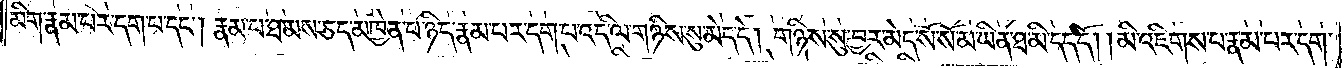མིག་རྣམ་པར་དག་པ་དང༌། རྣམ་པ་ཐམས་ཅད་མཁྱེན་པ་ཉིད་རྣམ་པར་དག་པ་འདི་ལ་གཉིས་སུ་མེད་དེ། གཉིས་སུ་བྱར་མེད་སོ་སོ་མ་ཡིན་ཐ་མི་དད་དོ། །མི་འཇིགས་པ་རྣམ་པར་དག་
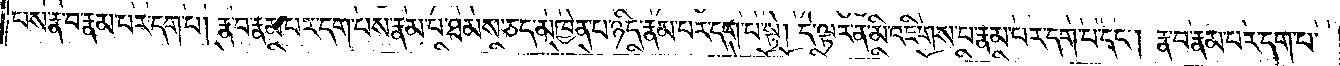པས་རྣ་བ་རྣམ་པར་དག་པ། རྣ་བ་རྣམ་པར་དག་པས་རྣམ་པ་ཐམས་ཅད་མཁྱེན་པ་ཉིད་རྣམ་པར་དག་པ་སྟེ། དེ་ལྟར་ན་མི་འཇིགས་པ་རྣམ་པར་དག་པ་དང༌། རྣ་བ་རྣམ་པར་དག་པ་
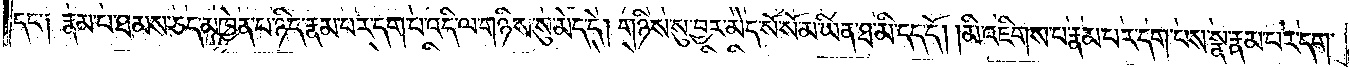དང་༑ རྣམ་པ་ཐམས་ཅད་མཁྱེན་པ་ཉིད་རྣམ་པར་དག་པ་འདི་ལ་གཉིས་སུ་མེད་དེ། གཉིས་སུ་བྱར་མེད་སོ་སོ་མ་ཡིན་ཐ་མི་དད་དོ། །མི་འཇིགས་པ་རྣམ་པར་དག་པས་སྣ་རྣམ་པར་དག་
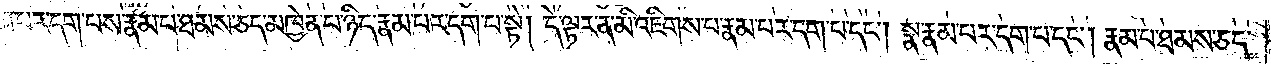པ༑ སྣ་རྣམ་པར་དག་པས་རྣམ་པ་ཐམས་ཅད་མཁྱེན་པ་ཉིད་རྣམ་པར་དག་པ་སྟེ། དེ་ལྟར་ན་མི་འཇིགས་པ་རྣམ་པར་དག་པ་དང༌། སྣ་རྣམ་པར་དག་པ་དང༌། རྣམ་པ་ཐམས་ཅད་
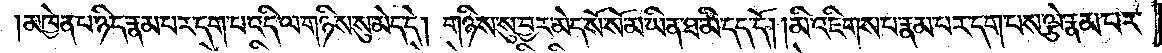མཁྱེན་པ་ཉིད་རྣམ་པར་དག་པ་འདི་ལ་གཉིས་སུ་མེད་དེ། གཉིས་སུ་བྱར་མེད་སོ་སོ་མ་ཡིན་ཐ་མི་དད་དོ། །མི་འཇིགས་པ་རྣམ་པར་དག་པས་ལྕེ་རྣམ་པར་
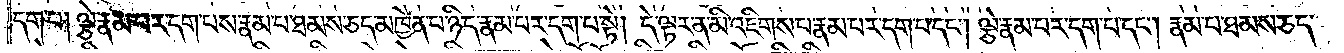དག་པ། ལྕེ་རྣམ་པར་དག་པས་རྣམ་པ་ཐམས་ཅད་མཁྱེན་པ་ཉིད་རྣམ་པར་དག་པ་སྟེ། དེ་ལྟར་ན་མི་འཇིགས་པ་རྣམ་པར་དག་པ་དང༌། ལྕེ་རྣམ་པར་དག་པ་དང༌། རྣམ་པ་ཐམས་ཅད་
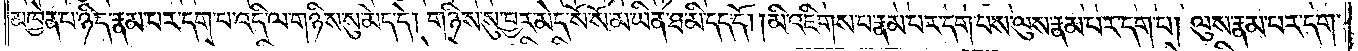མཁྱེན་པ་ཉིད་རྣམ་པར་དག་པ་འདི་ལ་གཉིས་སུ་མེད་དེ། གཉིས་སུ་བྱར་མེད་སོ་སོ་མ་ཡིན་ཐ་མི་དད་དོ། །མ་འཇིགས་པ་རྣམ་པར་དག་པས་ལུས་རྣམ་པར་དག་པ། ལུས་རྣམ་པར་དག་
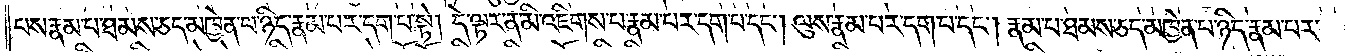པས་རྣམ་པ་ཐམས་ཅད་མཁྱེན་པ་ཉིད་རྣམ་པར་དག་པ་སྟེ། དེ་ལྟར་ན་མི་འཇིགས་པ་རྣམ་པར་དག་པ་དང༌། ལུས་རྣམ་པར་དག་པ་དང༌། རྣམ་པ་ཐམས་ཅད་མཁྱེན་པ་ཉིད་རྣམ་པར་
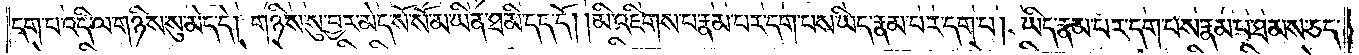དག་པ་འདི་ལ་གཉིས་སུ་མེད་དེ། གཉིས་སུ་བྱར་མེད་སོ་སོ་མ་ཡིན་ཐ་མི་དད་དོ། །མི་འཇིགས་པ་རྣམ་པར་དག་པས་ཡིད་རྣམ་པར་དག་པ། ཡིད་རྣམ་པར་དག་པས་རྣམ་པ་ཐམས་ཅད་
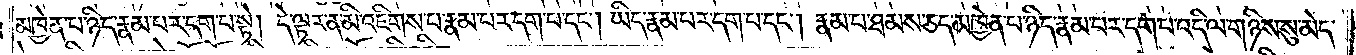མཁྱེན་པ་ཉིད་རྣམ་པར་དག་པ་སྟེ། དེ་ལྟར་ན་མི་འཇིགས་པ་རྣམ་པར་དག་པ་དང༌། ཡིད་རྣམ་པར་དག་པ་དང༌། རྣམ་པ་ཐམས་ཅད་མཁྱེན་པ་ཉིད་རྣམ་པར་དག་པ་འདི་ལ་གཉིས་སུ་མེད་
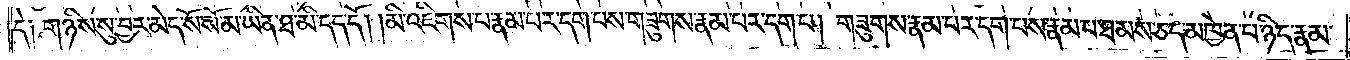དེ༑ གཉིས་སུ་བྱར་མེད་སོ་སོ་མ་ཡིན་ཐ་མི་དད་དོ། །མི་འཇིགས་པ་རྣམ་པར་དག་པས་གཟུགས་རྣམ་པར་དག་པ། གཟུགས་རྣམ་པར་དག་པས་རྣམ་པ་ཐམས་ཅད་མཁྱེན་པ་ཉིད་རྣམ་
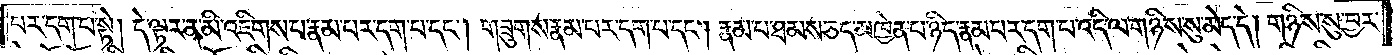པར་དག་པ་སྟེ། དེ་ལྟར་ན་མི་འཇིགས་པ་རྣམ་པར་དག་པ་དང༌། གཟུགས་རྣམ་པར་དག་པ་དང༌། རྣམ་པ་ཐམས་ཅད་མཁྱེན་པ་ཉིད་རྣམ་པར་དག་པ་འདི་ལ་གཉིས་སུ་མེད་དེ། གཉིས་སུ་བྱར་
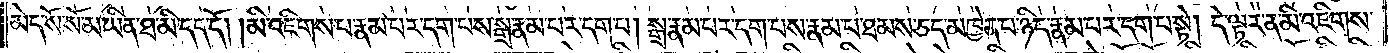མེད་སོ་སོ་མ་ཡིན་ཐ་མི་དད་དོ། །མི་འཇིགས་པ་རྣམ་པར་དག་པས་སྒྲ་རྣམ་པར་དག་པ། སྒྲ་རྣམ་པར་དག་པས་རྣམ་པ་ཐམས་ཅད་མཁྱེན་པ་ཉིད་རྣམ་པར་དག་པ་སྟེ། དེ་ལྟར་ན་མི་འཇིགས་
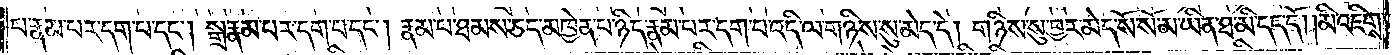པ་རྣམ་པར་དག་པ་དང༌། སྒྲ་རྣམ་པར་དག་པ་དང༌། རྣམ་པ་ཐམས་ཅད་མཁྱེན་པ་ཉིད་རྣམ་པར་དག་པ་འདི་ལ་གཉིས་སུ་མེད་དེ། གཉིས་སུ་བྱར་མེད་སོ་སོ་མ་ཡིན་ཐ་མི་དད་དོ། །མི་འཇིགས་
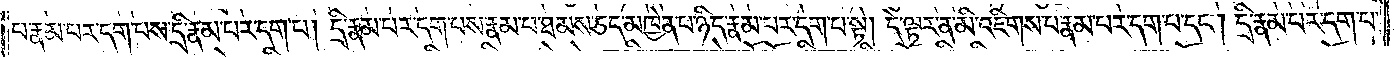པ་རྣམ་པར་དག་པས་དྲི་རྣམ་པར་དག་པ། དྲི་རྣམ་པར་དག་པས་རྣམ་པ་ཐམས་ཅད་མཁྱེན་པ་ཉིད་རྣམ་པར་དག་པ་སྟེ། དེ་ལྟར་ན་མི་འཇིགས་པ་རྣམ་པར་དག་པ་དང༌། དྲི་རྣམ་པར་དག་པ་
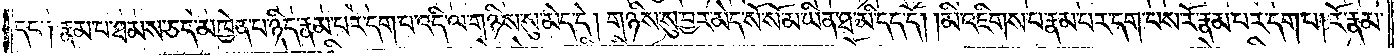དང་༑ རྣམ་པ་ཐམས་ཅད་མཁྱེན་པ་ཉིད་རྣམ་པར་དག་པ་འདི་ལ་གཉིས་སུ་མེད་དེ། གཉིས་སུ་བྱར་མེད་སོ་སོ་མ་ཡིན་ཐ་མི་དད་དོ། །མི་འཇིགས་པ་རྣམ་པར་དག་པས་རོ་རྣམ་པར་དག་པ། རོ་རྣམ་
